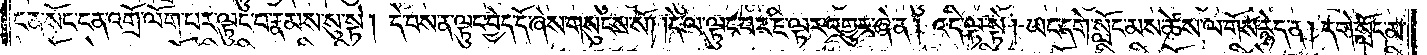ངན་སོང་ངན་འགྲོ་ལོག་པར་ལྟུང་བ་རྣམས་སུ་སྟེ། དེ་བས་ན་ལྟུང་བྱེད་དོ་ཞེས་གསུངས་སོ། །དེ་ལ་ལྟུང་བར་ཇི་ལྟར་འགྱུར་ཞེ་ན། འདི་ལྟ་སྟེ། ཡང་དགེ་སློང་མས་ཚེས་ལ་གོས་རྙེད་ན། དགེ་སློང་མ་
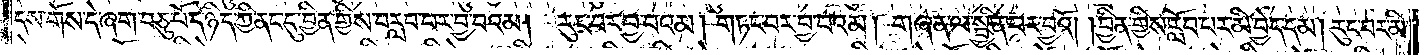དེས་གོས་དེ་ཞག་བཅུ་པོ་དེ་ཉིད་ཀྱི་ནང་དུ་བྱིན་གྱིས་བརླབ་པར་བྱ་བའམ། རུང་བར་བྱ་བའམ། གཏང་བར་བྱ་བའམ། གཞན་ལ་སྦྱིན་པར་བྱའོ། །བྱིན་གྱིས་རློབ་པར་མི་བྱེད་དམ། རུང་བར་མི་
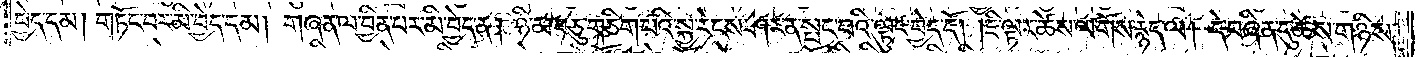བྱེད་དམ། གཏོང་བར་མི་བྱེད་དམ། གཞན་ལ་བྱིན་པར་མི་བྱེད་ན། ཉི་མ་བཅུ་གཅིག་པའི་སྐྱ་རེངས་ཤར་ན་སྤང་བའི་ལྟུང་བྱེད་དོ། །ཇི་ལྟར་ཚེས་ལ་གོས་རྙེད་ལ། དེ་བཞིན་དུ་ཚེས་གཉིས་
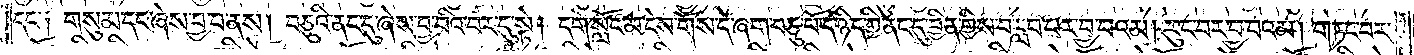དང་༑ གསུམ་དང་ཞེས་བྱ་བ་ནས། བཅུའི་ནང་དུ་ཞེས་བྱ་བའི་བར་དུ་སྟེ། དགེ་སློང་མ་དེས་གོས་དེ་ཞག་བཅུ་པོ་དེ་ཉིད་ཀྱི་ནང་དུ་བྱིན་གྱིས་བརླབ་པར་བྱ་བའམ། རུང་བར་བྱ་བའམ། གཏང་བར་
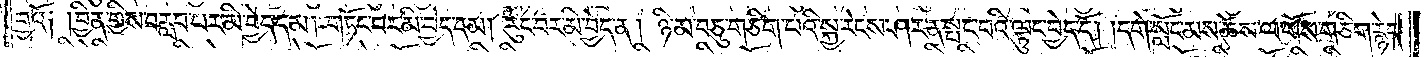བྱའོ༑ །བྱིན་གྱིས་བརླབ་པར་མི་བྱེད་དམ། གཏོང་བར་མི་བྱེད་དམ། རུང་བར་མི་བྱེད་ན། ཉི་མ་བཅུ་གཅིག་པའི་སྐྱ་རེངས་ཤར་ན་སྤང་བའི་ལྟུང་བྱེད་དོ། །དགེ་སློང་མས་ཚེས་ལ་གོས་གཅིག་རྙེད་
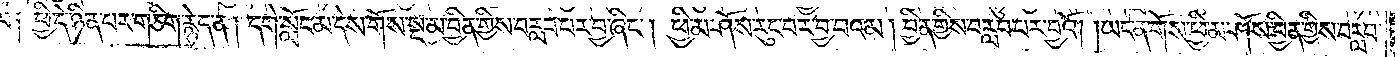ལ༑ ཕྱི་དེ་ཉིན་པར་གཅིག་རྙེད་ན། དགེ་སློང་མ་དེས་གོས་སྔ་མ་བྱིན་གྱིས་བརླབ་པར་བྱ་ཞིང༌། ཕྱི་མ་ཤོས་རུང་བར་བྱ་བའམ། བྱིན་གྱིས་བརླབ་པར་བྱའོ། །ཡང་ན་གོས་ཕྱི་མ་ཤོས་བྱིན་གྱིས་བརླབ་
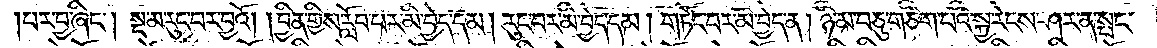པར་བྱ་ཞིང༌། སྔ་མ་རུང་བར་བྱའོ། །བྱིན་གྱིས་རློབ་པར་མི་བྱེད་དམ། རུང་བར་མི་བྱེད་དམ། གཏོང་བར་མི་བྱེད་ན། ཉི་མ་བཅུ་གཅིག་པའི་སྐྱ་རེངས་ཤར་ན་སྤང་
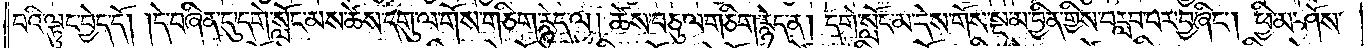བའི་ལྟུང་བྱེད་དོ། །དེ་བཞིན་དུ་དགེ་སློང་མས་ཚེས་དགུ་ལ་གོས་གཅིག་རྙེད་ལ། ཚེས་བཅུ་ལ་གཅིག་རྙེད་ན། དགེ་སློང་མ་དེས་གོས་སྔ་མ་བྱིན་གྱིས་བརླབ་པར་བྱ་ཞིང༌། ཕྱི་མ་ཤོས་
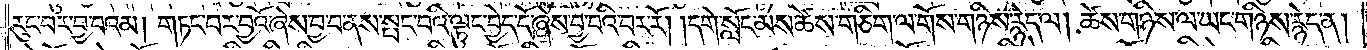རུང་བར་བྱ་བའམ། གཏང་བར་བྱའོ་ཞེས་བྱ་བ་ནས་སྤང་བའི་ལྟུང་བྱེད་དོ་ཞེས་བྱ་བའི་བར་རོ། །དགེ་སློང་མས་ཚེས་གཅིག་ལ་གོས་གཉིས་རྙེད་ལ། ཚེས་གཉིས་ལ་ཡང་གཉིས་རྙེད་ན།
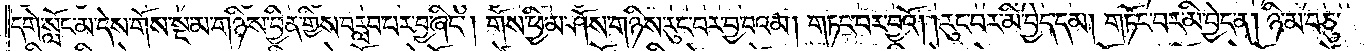དགེ་སློང་མ་དེས་གོས་སྔ་མ་གཉིས་བྱིན་གྱིས་བརླབ་པར་བྱ་ཞིང༌། གོས་ཕྱི་མ་ཤོས་གཉིས་རུང་བར་བྱ་བའམ། གཏང་བར་བྱའོ། །རུང་བར་མི་བྱེད་དམ། གཏོང་བར་མི་བྱེད་ན། ཉི་མ་བཅུ་
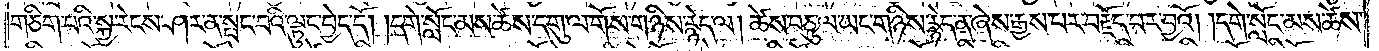གཅིག་པའི་སྐྱ་རེངས་ཤར་ན་སྤང་བའི་ལྟུང་བྱེད་དོ། །དགེ་སློང་མས་ཚེས་དགུ་ལ་གོས་གཉིས་རྙེད་ལ། ཚེས་བཅུ་ལ་ཡང་གཉིས་རྙེད་ན་ཞེས་རྒྱས་པར་བརྗོད་པར་བྱའོ། །དགེ་སློང་མས་ཚེས་
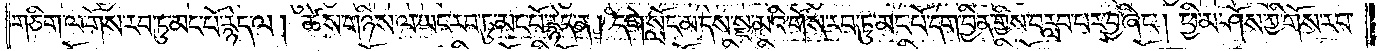གཅིག་ལ་གོས་རབ་ཏུ་མང་པོ་རྙེད་ལ། ཚེས་གཉིས་ལ་ཡང་རབ་ཏུ་མང་པོ་རྙེད་ན། དགེ་སློང་མ་དེས་སྔ་མའི་གོས་རབ་ཏུ་མང་པོ་དག་བྱིན་གྱིས་བརླབ་པར་བྱ་ཞིང༌། ཕྱི་མ་ཤོས་ཀྱི་གོས་རབ་
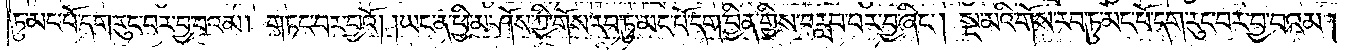ཏུ་མང་པོ་དག་རུང་བར་བྱ་བའམ། གཏང་བར་བྱའོ། །ཡང་ན་ཕྱི་མ་ཤོས་ཀྱི་གོས་རབ་ཏུ་མང་པོ་དག་བྱིན་གྱིས་བརླབ་པར་བྱ་ཞིང༌། སྔ་མའི་གོས་རབ་ཏུ་མང་པོ་དག་རུང་བར་བྱ་བའམ།
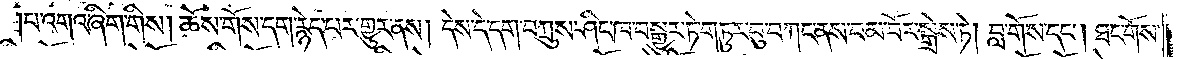པ་འགའ་ཞིག་གིས། ཆོས་གོས་དག་རྙེད་པར་གྱུར་ནས། དེས་དེ་དག་བཀྲུས་ཤིང་ཁ་བསྒྱུར་ཏེ་གཏུར་བུ་བཀང་ནས་བམ་པོར་སྒྲེས་ཏེ། བླ་གོས་དང༌། ཐང་གོས་
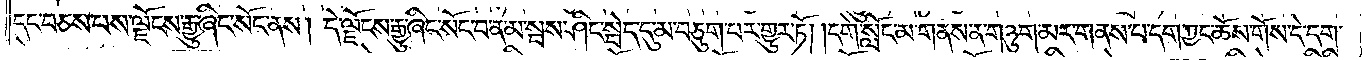དང་བཅས་པས་ལྗོངས་རྒྱུ་ཞིང་སོང་ནས། དེ་ལྗོངས་རྒྱུ་ཞིང་སོང་བ་ན་མ་སྦས་ཤིང་སྦེད་དུ་མ་བཅུག་པར་གྱུར་ཏོ། །དགེ་སློང་མ་གནས་ན་གཉུག་མར་གནས་པ་དག་ཀྱང་ཆོས་གོས་དེ་དག་
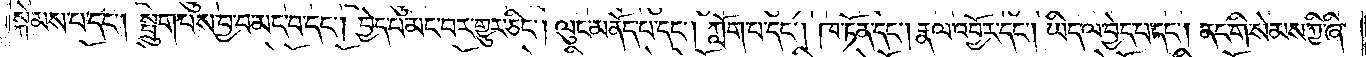སྐེམས་པ་དང༌། སྤྲུག་པས་བྱ་བ་མང་བ་དང༌། བྱེད་པ་མང་བར་གྱུར་ཅིང༌། ལུང་མནོད་པ་དང༌། ཀློག་པ་དང༌། ཁ་ཏོན་དང༌། རྣལ་འབྱོར་དང༌། ཡིད་ལ་བྱེད་པ་དང༌། ནང་གི་སེམས་ཀྱི་ཞི་
